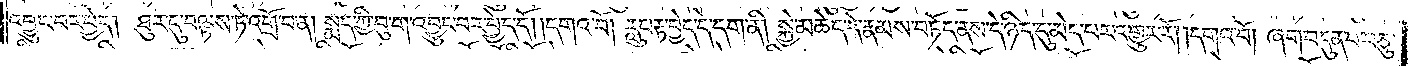འབྱུང་བར་བྱེད། ཐུར་དུ་བལྟས་ཏེ་འགྲོ་བ་ན། སྨད་ཀྱི་བུ་ག་འབྱུང་བར་བྱེད་དོ། །དགའ་བོ། རླུང་རྟ་བྱེད་དེ་དག་ནི། སྐྱེ་མཆེད་དེ་རྣམས་བཏོད་ནས་དེ་ཉིད་དུ་མེད་པར་འགྱུར་རོ། །དགའ་བོ། ཞག་བདུན་པ་བཅུ་
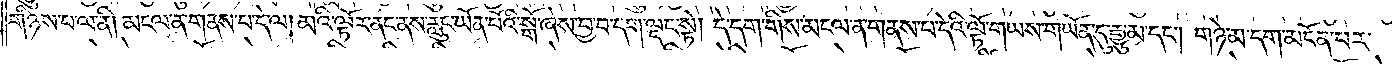གཉིས་པ་ལ་ནི། མངལ་ན་གནས་པ་དེ་ལ། མའི་ལྟོར་ནང་ནས་རླུང་ཡོན་པོའི་སྒོ་ཞེས་བྱ་བ་དག་ལྡང་སྟེ། དེ་དག་གིས་མངལ་ན་གནས་པ་དེའི་ལྟོ་གཡས་གཡོན་དུ་རྒྱུ་མ་དང༌། གཉེ་མ་དག་མངོན་པར་
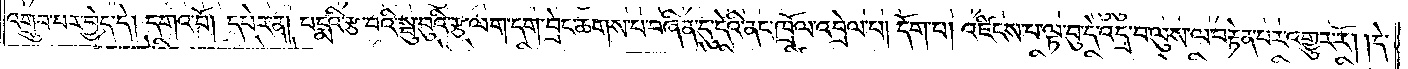འགྲུབ་པར་བྱེད་དེ། དགའ་བོ། དཔེར་ན། པདྨའི་རྩ་བའི་སྦུ་བུའི་རྩ་ལག་དག་བྲེང་ཆགས་པ་བཞིན་དུ་དེའི་ནང་ཁྲོལ་འབྲེལ་པ། དོག་པ། འཛིངས་པ་ལྟ་བུ་དེ་འདྲ་བ་ལུས་ལ་བརྟེན་པར་འགྱུར་རོ། །དེ་
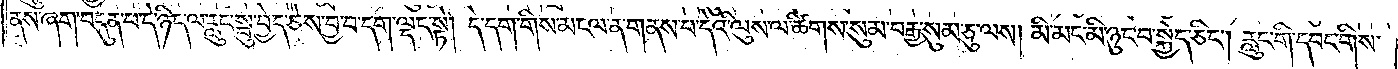ནས་ཞག་བདུན་པ་དེ་ཉིད་ལ་རླུང་སྦུ་བྱེད་ཅེས་བྱ་བ་དག་ལྡང་སྟེ། དེ་དག་གིས་མངལ་ན་གནས་པ་དེའི་ལུས་ལ་ཚིགས་སུམ་བརྒྱ་སུམ་ཅུ་ལས། མི་མང་མི་ཉུང་བ་སྐྱེད་ཅིང༌། རླུང་གི་དབང་གིས་
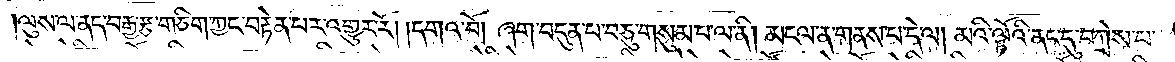ལུས་ལ་ནད་བརྒྱ་རྩ་གཅིག་ཀྱང་བརྟེན་པར་འགྱུར་རོ། །དགའ་བོ། ཞག་བདུན་པ་བཅུ་གསུམ་པ་ལ་ནི། མངལ་ན་གནས་པ་དེ་ལ། མའི་ལྟོའི་ནང་དུ་བཀྲེས་པ་
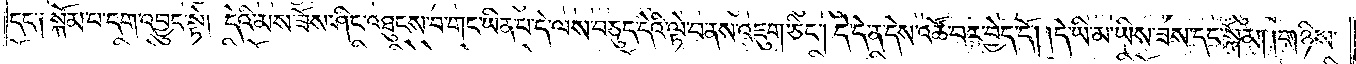དང༌། སྐེམ་པ་དག་འབྱུང་སྟེ། དེའི་མས་ཟོས་ཤིང་འཐུངས་བ་གང་ཡིན་པ་དེ་ལས་བཅུད་དེའི་ལྟེ་བ་ནས་འཇུག་ཅིང༌། དེ་དེ་ན་དེས་འཚོ་བར་བྱེད་དོ། །དེ་ཡི་མ་ཡིས་ཟས་དང་སྐོམ། །གཉིས་
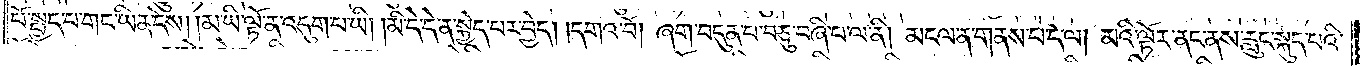པོ་སྤྱད་པ་གང་ཡིན་དེས། །མ་ཡི་ལྟོ་ན་འདུག་པ་ཡི། །མི་དེ་དེ་ན་སྐྱེད་པར་བྱེད། །དགའ་བོ། ཞག་བདུན་པ་བཅུ་བཞི་པ་ལ་ནི། མངལ་ན་གནས་པ་དེ་ལ། མའི་ལྟོར་ནང་ནས་རླུང་སྐུད་པའི་
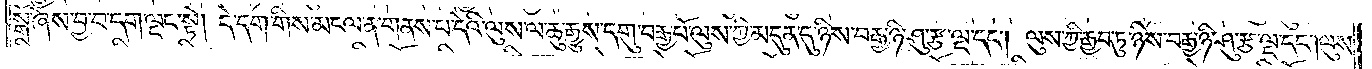སྒོ་ཞེས་བྱ་བ་དག་ལྡང་སྟེ། དེ་དག་གིས་མངལ་ན་གནས་པ་དེའི་ལུས་ལ་ཆུ་རྒྱུས་དགུ་བརྒྱ་པོ་ལུས་ཀྱི་མདུན་དུ་ཉིས་བརྒྱ་ཉི་ཤུ་རྩ་ལྔ་དང༌། ལུས་ཀྱི་རྒྱབ་ཏུ་ཉིས་བརྒྱ་ཉི་ཤུ་རྩ་ལྔ་དང༌། ལུས་
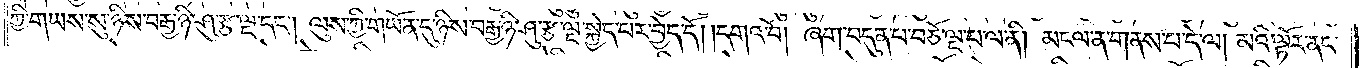ཀྱི་གཡས་སུ་ཉིས་བརྒྱ་ཉི་ཤུ་རྩ་ལྔ་དང༌། ལུས་ཀྱི་གཡོན་དུ་ཉིས་བརྒྱ་ཉི་ཤུ་རྩ་ལྔ་སྐྱེད་པར་བྱེད་དོ། །དགའ་བོ། ཞག་བདུན་པ་བཅོ་ལྔ་པ་ལ་ནི། མངལ་ན་གནས་པ་དེ་ལ། མའི་ལྟོར་ནང་
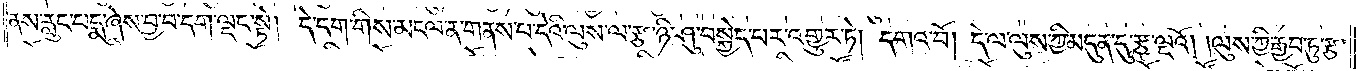ནས་རླུང་པདྨ་ཞེས་བྱ་བ་དག་ལྡང་སྟེ། དེ་དག་གིས་མངལ་ན་གནས་པ་དེའི་ལུས་ལ་རྩ་ཉི་ཤུ་བསྐྱེད་པར་འགྱུར་ཏེ། དགའ་བོ། དེ་ལ་ལུས་ཀྱི་མདུན་དུ་རྩ་ལྔའོ། །ལུས་ཀྱི་རྒྱབ་ཏུ་རྩ་
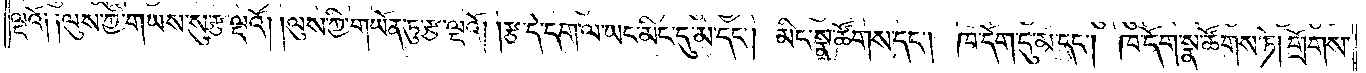ལྔའོ། །ལུས་ཀྱི་གཡས་སུ་རྩ་ལྔའོ། །ལུས་ཀྱི་གཡོན་ཏུ་རྩ་ལྔའོ། །རྩ་དེ་དག་ལ་ཡང་མིང་དུ་མ་དང༌། མིང་སྣ་ཚོགས་དང༌། ཁ་དོག་དུ་མ་དང༌། ཁ་དོག་སྣ་ཚོགས་ཏེ། གྲོགས་
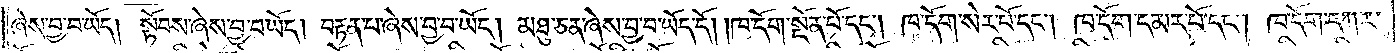ཞེས་བྱ་བ་ཡོད། སྟོབས་ཞེས་བྱ་བ་ཡོད། བརྟན་པ་ཞེས་བྱ་བ་ཡོད། མཐུ་ཅན་ཞེས་བྱ་བ་ཡོད་དོ། །ཁ་དོག་སྔོན་པོ་དང༌། ཁ་དོག་སེར་པོ་དང༌། ཁ་དོག་དམར་པོ་དང༌། ཁ་དོག་དཀར་
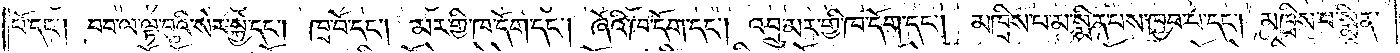པོ་དང༌། བབ་ལ་ལྟ་བུའི་སེར་སྐྱ་དང༌། ཁྲ་བོ་དང༌། མར་གྱི་ཁ་དོག་དང༌། ཞོའི་ཁ་དོག་དང༌། འབྲུ་མར་གྱི་ཁ་དོག་དང༌། མཁྲིས་པ་མ་སྨིན་པས་ཁྱབ་པ་དང༌། མཁྲིས་པ་སྨིན་
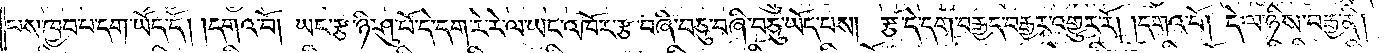པས་ཁྱབ་པ་དག་ཡོད་དོ། །དགའ་བོ། ཡང་རྩ་ཉི་ཤུ་པོ་དེ་དག་རེ་རེ་ལ་ཡང་འཁོར་རྩ་བཞི་བཅུ་བཞི་བཅུ་ཡོད་པས། རྩ་དེ་དག་བརྒྱད་བརྒྱར་འགྱུར་རོ། །དགའ་བོ། དེ་ལ་ཉིས་བརྒྱ་ནི།
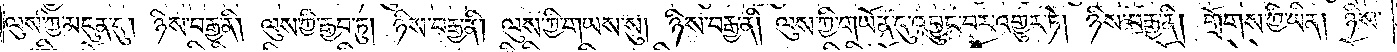ལུས་ཀྱི་མདུན་དུ། ཉིས་བརྒྱ་ནི། ལུས་ཀྱི་རྒྱབ་ཏུ། ཉིས་བརྒྱ་ནི། ལུས་ཀྱི་གཡས་སུ། ཉིས་བརྒྱ་ནི། ལུས་ཀྱི་གཡོན་དུ་འབྱུང་བར་འགྱུར་ཏེ། ཉིས་བརྒྱ་ནི། གྲོགས་ཀྱི་ཡིན། ཉིས་
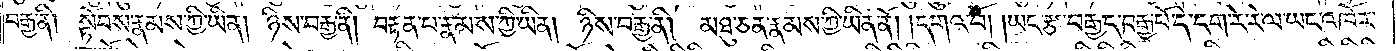བརྒྱ་ནི། སྟོབས་རྣམས་ཀྱི་ཡིན། ཉིས་བརྒྱ་ནི། བརྟན་པ་རྣམས་ཀྱི་ཡིན། ཉིས་བརྒྱ་ནི། མཐུ་ཅན་རྣམས་ཀྱི་ཡིན་ནོ། །དགའ་བོ། །ཡང་རྩ་བརྒྱད་བརྒྱ་པོ་དེ་དག་རེ་རེ་ལ་ཡང་འཁོར་
